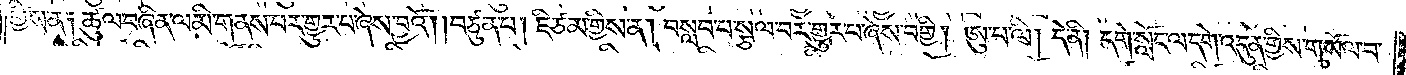གྱིས་ན༑ ཚུལ་བཞིན་ལ་མི་གནས་པར་གྱུར་པ་ཞེས་བྱའོ། །བཙུན་པ། ཇི་ཙམ་གྱིས་ན། བསླབ་པ་སྩལ་བར་གྱུར་པ་ཞེས་བགྱི། ཨུ་པ་ལི། དེ་ནི། དགེ་སློང་ལ་དགེ་འདུན་གྱིས་གསོལ་བ་
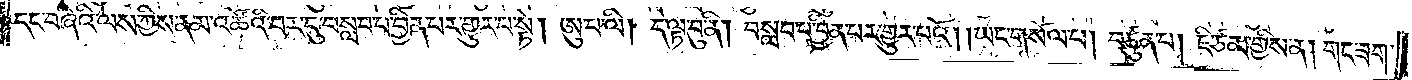དང་བཞིའི་ལས་ཀྱིས་ནམ་འཚོའི་བར་དུ་བསླབ་པ་བྱིན་པར་གྱུར་པ་སྟེ། ཨུ་པ་ལི། དེ་ལྟ་བུ་ནི། བསླབ་པ་བྱིན་པར་གྱུར་པའོ། །ཡང་གསོལ་པ། བཙུན་པ། ཇི་ཙམ་གྱིས་ན། གང་ཟག་
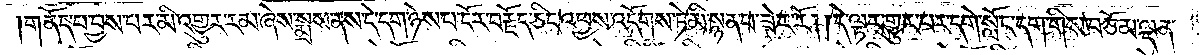གནོད་པ་བྱས་པར་མི་འགྱུར་རམ་ཞེས་སྨྲས་ནས་དེ་དག་ཉེས་པ་དོར་བརྗོད་ཅིང་འཕྱས་འདོགས་ཏེ་མི་སྙན་པ་ཟེར་རོ། །དེ་ལྟར་གྱུར་བར་དགེ་སློང་དག་གིས་བཅོམ་ལྡན་
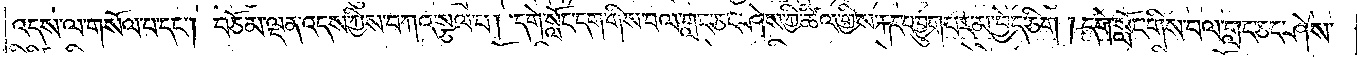འདས་ལ་གསོལ་པ་དང༌། བཅོམ་ལྡན་འདས་ཀྱིས་བཀའ་སྩལ་པ། དགེ་སློང་དག་གིས་བལ་གླང་ཅང་ཤེས་ཀྱི་ཚིལ་གྱིས་རྐང་བ་བྱུག་པར་མ་བྱེད་ཅིག །དགེ་སློང་གིས་བལ་གླང་ཅང་ཤེས་
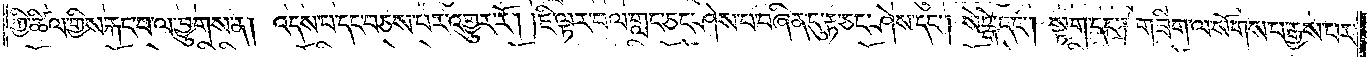ཀྱི་ཚིལ་གྱིས་རྐང་པ་ལ་བྱུགས་ན། འདས་པ་དང་བཅས་པར་འགྱུར་རོ། །ཇི་ལྟར་བལ་གླང་ཅང་ཤེས་པ་བཞིན་དུ་རྟ་ཅང་ཤེས་དང༌། སེངྒེ་དང༌། སྟག་དང༌། གཟིག་ལས་སོགས་པ་རྒྱས་པར་
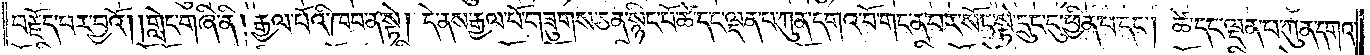བརྗོད་པར་བྱའོ། །གླེང་གཞི་ནི། རྒྱལ་པོའི་ཁབ་ན་སྟེ། དེ་ནས་རྒྱལ་པོ་གཟུགས་ཅན་སྙིང་པོ་ཚེ་དང་ལྡན་པ་ཀུན་དགའ་བོ་གང་ན་བར་སོང་སྟེ་དྲུང་དུ་ཕྱིན་པ་དང༌། ཚེ་དང་ལྡན་པ་ཀུན་དགའ་
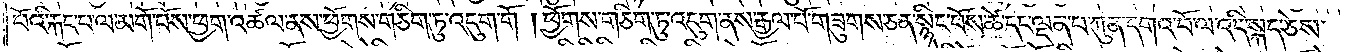པོའི་རྐང་པ་ལ་མགོ་བོས་ཕྱག་འཚལ་ནས་ཕྱོགས་གཅིག་ཏུ་འདུག་གོ །ཕྱོགས་གཅིག་ཏུ་འདུག་ནས་རྒྱལ་བོ་གཟུགས་ཅན་སྙིང་པོས་ཚེ་དང་ལྡན་པ་ཀུན་དགའ་བོ་ལ་འདི་སྐད་ཅེས་
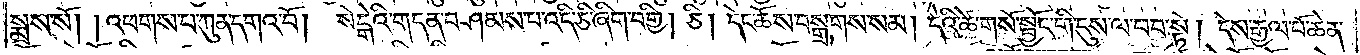སྨྲས་སོ། །འཕགས་པ་ཀུན་དགའ་བོ། སེངྒེའི་གདན་བཤམས་པ་འདི་ཅི་ཞིག་བགྱི། ཅི། དེང་ཆོས་བསྒྲགས་སམ། དེའི་ཚེ་གསོ་སྦྱོང་གི་དུས་ལ་བབ་སྟེ། དེས་རྒྱལ་པོ་ཆེན་
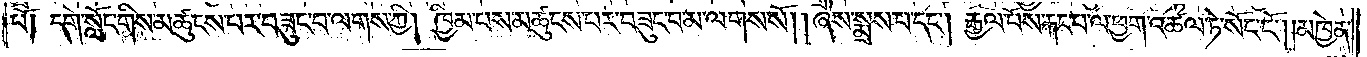པོ། དགེ་སློང་གིས་མཚུངས་པར་བཟུང་བ་ལགས་ཀྱི། ཁྱིམ་པས་མཚུངས་པར་བཟུང་བ་མ་ལགས་སོ། །ཞེས་སྨྲས་པ་དང༌། རྒྱལ་པོས་རྐང་པ་ལ་ཕྱག་འཚལ་ཏེ་སོང་ངོ༌། །མཁྱེན་
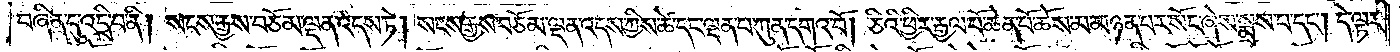བཞིན་དུ་འདྲི་བ་ནི། སངས་རྒྱས་བཅོམ་ལྡན་འདས་ཏེ། སངས་རྒྱས་བཅོམ་ལྡན་འདས་ཀྱིས་ཚེ་དང་ལྡན་པ་ཀུན་དགའ་བོ། ཅིའི་ཕྱིར་རྒྱལ་པོ་ཆེན་པོ་ཆོས་མ་མཉན་པར་སོང་ཞེས་སྨྲས་པ་དང༌། དེ་ལྟར་
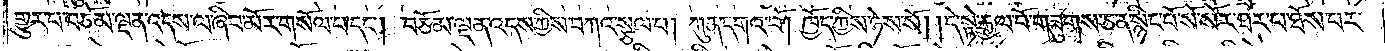གྱུར་པ་བཅོམ་ལྡན་འདས་ལ་ཞིབ་མོར་གསོལ་པ་དང༌། བཅོམ་ལྡན་འདས་ཀྱིས་བཀའ་སྩལ་པ། ཀུན་དགའ་བོ། ཁྱོད་ཀྱིས་ཉེས་སོ། །དེ་སྟེ་རྒྱལ་པོ་གཟུགས་ཅན་སྙིང་པོ་སོ་སོར་ཐར་པ་ཐོས་པར་
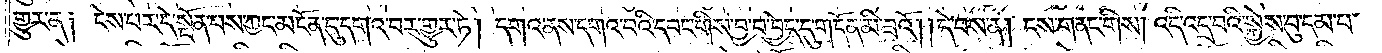གྱུར་ན༑ ངེས་པར་དེ་སྔོན་པས་ཀྱང་མངོན་དུ་དགའ་བར་གྱུར་ཏེ། དགའ་ནས་དགའ་བའི་དབང་གིས་བྱ་བ་བྱེད་དུ་གདོན་མི་ཟའོ། །དེ་བས་ན། ངས་གནང་གིས། འདི་འདྲ་བའི་སྐྱེས་བུ་དམ་པ་
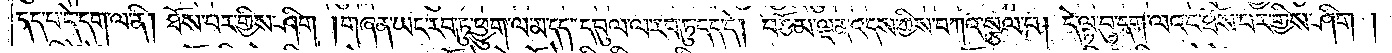དད་པ་དེ་དག་ལ་ནི། ཐོས་པར་གྱིས་ཤིག །གཞན་ཡང་རབ་ཏུ་ཕྱུག་ལ་མ་དད་དབུལ་ལ་རབ་ཏུ་དད་དེ། བཅོམ་ལྡན་འདས་ཀྱིས་བཀའ་སྩལ་པ། དེ་ལྟ་བུ་དག་ལའང་ཐོས་པར་གྱིས་ཤིག།
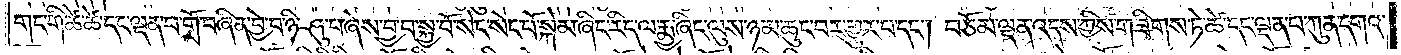གང་གི་ཚེ་ཚེ་དང་ལྡན་པ་གྲོ་བཞིན་བྱེ་བ་ཉི་ཤུ་པ་ཞེས་བྱ་བ་སྐྱ་བོ་སེང་སེང་པོ་སྐེམ་ཞིང་རིད་ལ་རྨྱ་ཞིང་ལུས་ཉམ་ཆུང་བར་གྱུར་པ་དང༌། བཅོམ་ལྡན་འདས་ཀྱིས་གཟིགས་ཏེ་ཚེ་དང་ལྡན་པ་ཀུན་དགའ་
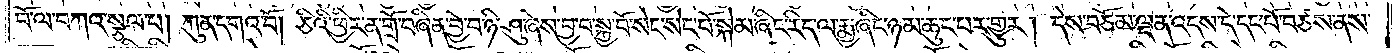པོ་ལ་བཀའ་སྩལ་པ། ཀུན་དགའ་བོ། ཅིའི་ཕྱིར་ན་གྲོ་བཞིན་བྱེ་བ་ཉི་ཤུ་ཞེས་བྱ་བ་སྐྱ་བོ་སེང་སེང་བོ་སྐེམ་ཞིང་རིད་ལ་རྨྱ་ཞིང་ཉམ་ཆུང་པར་གྱུར། དེས་བཅོམ་ལྡན་འདས་དེ་དང་པོ་བཙས་ནས་
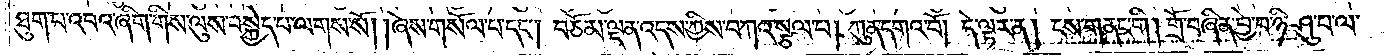ཐུག་པ་འབའ་ཞིག་གིས་ལུས་བསྐྱེད་པ་ལགས་སོ། །ཞེས་གསོལ་པ་དང༌། བཅོམ་ལྡན་འདས་ཀྱིས་བཀའ་སྩལ་པ། ཀུན་དགའ་བོ། །དེ་ལྟར་ན། ངས་གནང་གི །གྲོ་བཞིན་བྱེ་བ་ཉི་ཤུ་པ་ལ་
